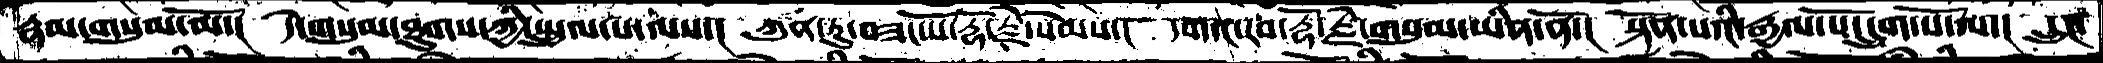རྣམ་གསུམ་མོ་།  དེ་གསུམ་ཐུགས་ཀྱི་སྤྲུལ་པ་ལས་།  ཀུན་ཏུ་བཟང་པོ་རྡོ་རྗེ་སེམས་།  དགའ་རབ་རྡོ་རྗེ་གསུམ་ཡིན་ནོ་།  སྟོན་པའི་རྒྱལ་པོ་དྲུག་པོ་ལ་།  དྲུང་
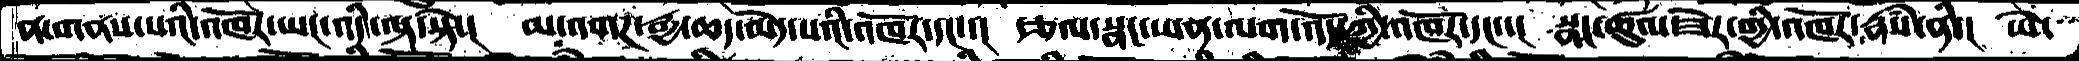ན་གནས་པའི་འཁོར་ཡང་འདི་ལྟ་སྟེ་།  མ་འགཌ་རྒྱ་ཆད་མེད་པའི་འཁོར་དང་་།  རྩལ་སྣང་ཡན་ལག་འོད་ཀྱི་འཁོར་དང་་།  སྣང་ཚུལ་ཟེར་གྱི་འཁོར་རྣཾས་ནི་།  ཡེ་
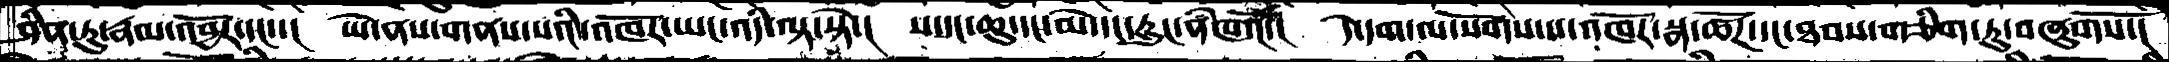ཤིན་ཏུ་རྣལ་འབྱོར་དང་་།  ཡེ་ནས་གནས་པའི་འཁོར་ཡང་འདི་ལྟ་སྟེ་།  ས་དང་ཆུ་དང་མེ་དང་རླུང་ནཾཁའོ་།  དེ་དག་ལ་སོགས་པ་འཁོར་སྣ་ཚོཌ་དང་ཐབས་གཅིག་ཏུ་བཞུགསོ་།
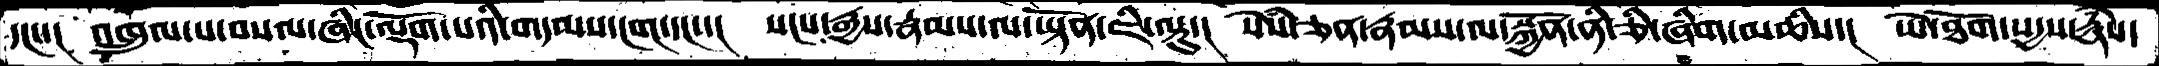དང་་།  འཁྲུལ་པ་བསལ་ཞིང་ལྡོག་པའི་གདམས་ངག་དང་་།  སངས་རྒྱས་རྣམས་ལ་ཡྟོན་ཇི་ལྟུ་།  སེཾས་ཅན་རྣམས་ལ་སྐྱོན་ནི་ཅི་ཞིག་མཆིས་།  ཡེ་ཐོག་སདྱས་རྣཾས་
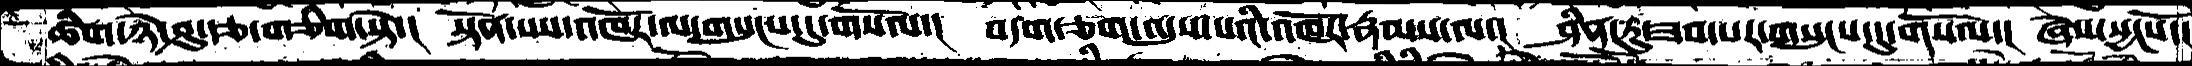ཚིག་ཉེ་ཤུ་རྩ་གཅིག་སྟེ་།  སྟོན་པས་འཁོར་ལ་གསུངས་དུ་གསོལ་།  བདག་ཅག་ལུས་པའི་འཁོར་རྣམས་ལ་།  ཤིན་ཏུ་ཟབ་པར་གསུངས་དུ་གསོལ་།  ཞེས་སྱངསོ་།
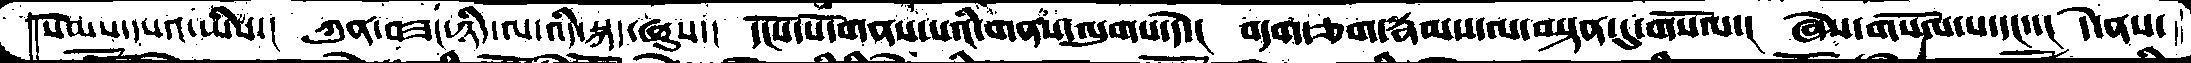སེམས་དཔའ་ཡིས་།  ཀུན་བཟང་ཉིད་ལ་འདི་སྐད་ཞུས་།  དངོས་པོ་གནས་པའི་གནས་ལུགས་དེ་།  བདག་ཅག་རྣམས་ལ་བསྟན་དུ་གསོལ་།  ཞེས་གསོལ་པ་དང་་།  དེ་ནས་
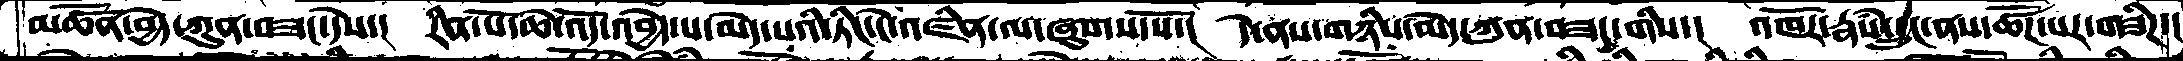མཚན་བྱེད་ཀུན་བཟང་དེས་།  རིན་པོ་ཆེ་འོད་འབྱེད་པ་མེད་པའི་ཏིང་ངེ་འཛིན་ལ་ཞུགས་སོ་།  དེ་ནས་གཉིས་མེད་ཀུན་བཟང་གིས་།  འཁོར་རྣཾས་དྲུང་ནས་ཚོཌ་པར་གཟིཌ་།
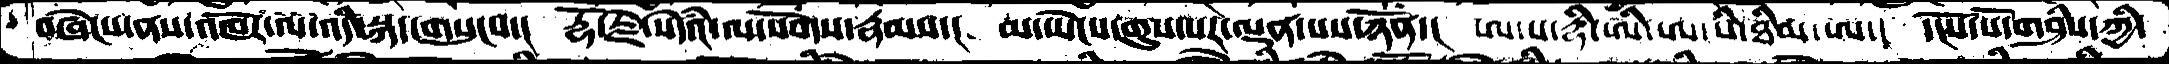བཞེངས་ནས་འཁོར་ལ་འདི་སྐད་གསུངས་།  རྡོ་རྗེ་སེདཾའ་ལ་སོགས་རྣམས་།  མཡེངས་གུས་པར་ལྡན་པས་ཉོན་།  ཨ་ས་རྡི་ཨི་ཨཱ་སི་ཐིམ་ཨ་།  དངོས་པོ་གཤིས་ཀྱི་
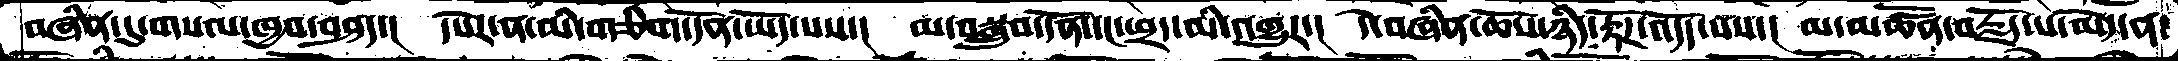བཞིན་དུ་གསལ་ཁྱབ་བཤད་།  དཔེར་ན་མི་གཅིག་དོན་ཡོད་པས་།  མ་བསྒྲུབ་དོན་དང་ཕྲད་མི་འགྱུར་།  དེ་བཞིན་ཆོས་ཉིད་རྟོཌ་འདོད་པས་།  མ་མཚོན་བརྗོད་པ་མེད་ན་
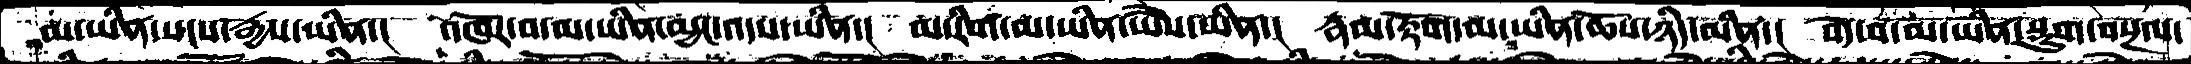མ་ཡིན་སངས་རྒྱས་ཡིན་།  འཁོར་བ་མ་ཡིན་མྱང་འདས་ཡིན་།   མ་རིག་མ་ཡིན་ཡཻས་ཡིན་།  རྣམ་རྟོག་མ་ཡིན་ཆོས་ཉིད་མིན་།  བདེ་བ་མ་ཡིན་སྡུག་བསྔལ་
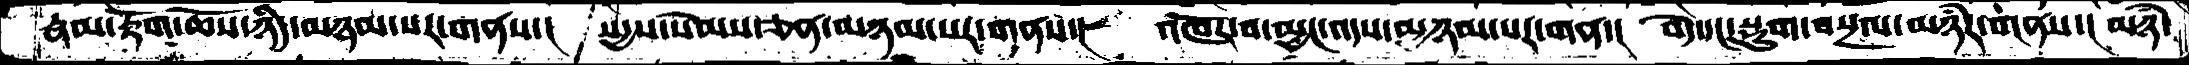རྣམ་རྟོག་ཆོས་ཉིད་མཉམ་པར་གནས་།  སདྱས་སེམས་ཅན་མཉམ་པར་གནས་།  འཁོར་བ་མྱང་འདས་མཉམ་པར་གན་། བདེ་དང་སྡུག་བསྔལ་མཉཾར་གནས་།  མཉཾ་
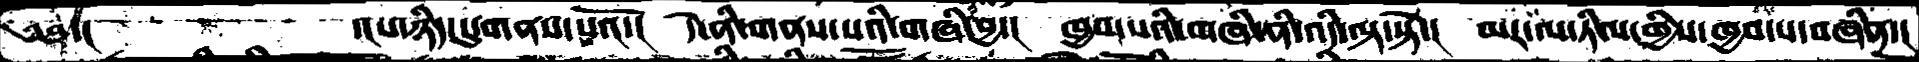༄༅་།      ་།པ་ཉིད་དུ་གནས་པའོ་།  དེ་ནི་གནས་པའི་གཞི་བྱ་།  ཁྱབ་པའི་གཞི་ནི་འདི་ལྟ་སྟེ་།  མར་ལ་ཏིལ་གྱིས་ཁྱབ་པ་གཞིན་།
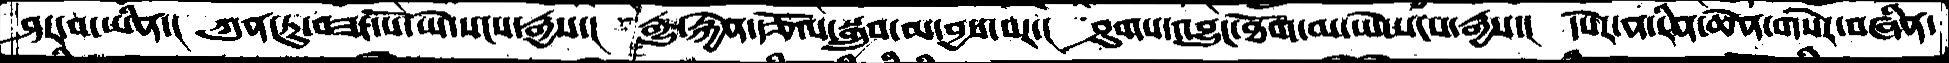ཤར་བ་ཡིན་།  ཀུན་ཏུ་བཟང་པོ་ཡེ་སངས་རྒྱས་།  རྒྱུ་རྐྱེན་རྩོལ་སྒྲུབ་མ་བྱས་པར་།  ཤུགས་འབྱུང་ཐོག་མ་ཡེ་སངས་རྒྱས་།  དཔེར་ན་རིན་ཆེན་གསེར་བཞིན་
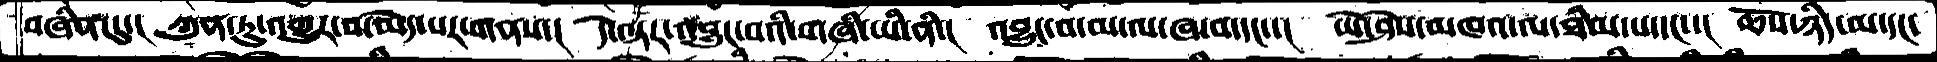བཞིན་དུ་།  ཀུན་ཏུ་འགྱུར་བ་མེད་པར་གནས་།  དེ་ལྟར་འབྱུང་བའི་གཞི་ཡི་ནི་།  འབྱུང་བ་མ་ལ་ཞ་བ་དང་་།  ཡེ་ཤེས་མཁའ་ལ་ཐིམ་པ་དང་་།  ཆོས་ཉིད་མ་དང་
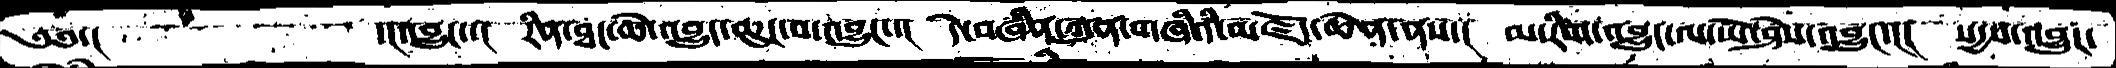༄༅་།         ་།འབྱུང་་།  རིན་ཐང་ཆེ་འབྱུང་ཆུང་བ་འབྱུང་་།  དེ་བཞིན་ཀུན་གཞིའི་མཛོད་ཆེན་ནས་།  མ་རིག་འབྱུང་ལ་ཡེ་ཤེས་འབྱུང་་།  སདྱས་འབྱུང་
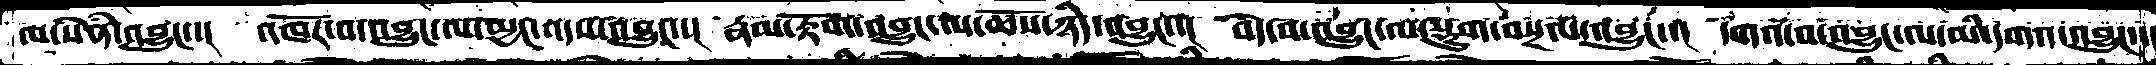ལ་སེནཾ་འབྱུང་།  འཁོར་བ་འབྱུང་ལ་མྱང་འདས་འབྱུང་་།  རྣམ་རྟོག་འབྱུང་ལ་ཆོས་ཉིད་འབྱུང་་།  བདེ་བ་འབྱུང་ལ་སྡུག་བསྔལ་འབྱུང་་།  དགའ་བ་འབྱུང་ལ་མི་དགའ་འབྱུང་་།
